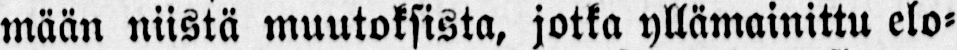mään niistä muutoksista, jotka yllämainittu elo-
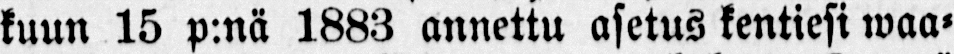kuun 15 p.nä 1883 annettu asetus kentiesi waa-
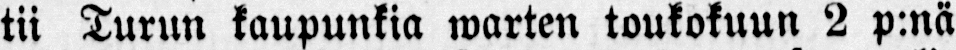tii Turun kaupunkia warten toukokuun 2 p:nä
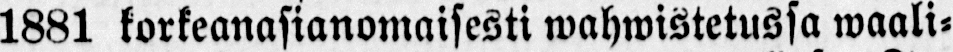1881 korkeanasianomaisesti wahwistetussa waali-
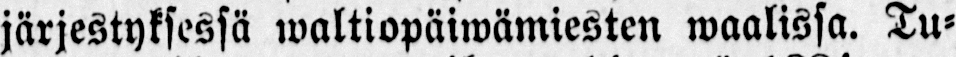järjestyksessä waltiopäiwämiesten waalissa. Tu-
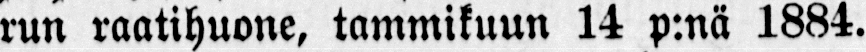run raatihuone, tammikuun 14 p:nä 1884.
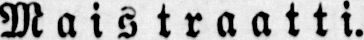Maistraatti.
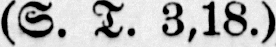(S. T. 3,18.)
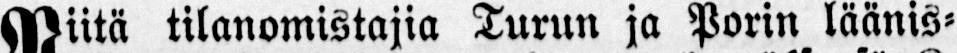Niitä tilanomistajia Turun ja Porin läänis-
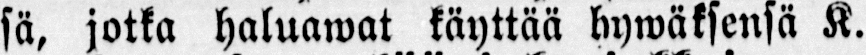sä, jotka haluawat käyttää hywäksensä K.
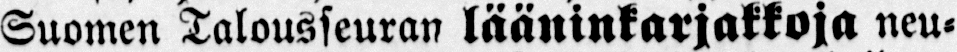Suomen Talousseuran lääninkarjakkoja neu-
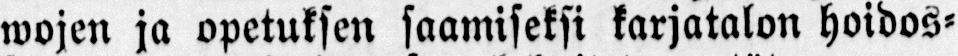wojen ja opetuksen saamiseksi karjatalon hoidos-
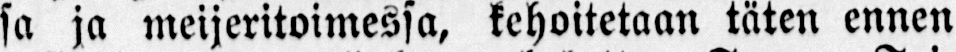sa ja meijeritoimessa, kehoitetaan täten ennen
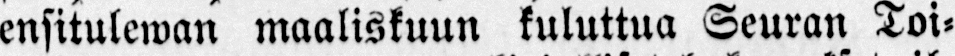ensitulewan maaliskuun kuluttua Seuran Toi-
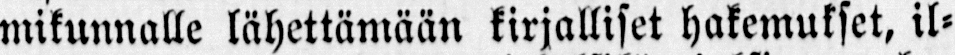mikunnalle lähettämään kirjalliset hakemukset, il-
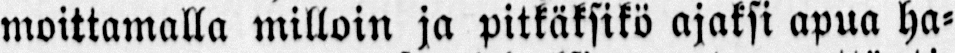moittamalla milloin ja pitkäksikö ajaksi apua ha-
